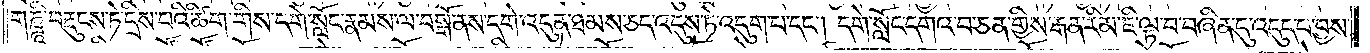གཎྜཱི་བརྡུངས་ཏེ་དྲིས་པའི་ཚིག་གིས་དགེ་སློང་རྣམས་ལ་བསྒོ་ནས་དགེ་འདུན་ཐམས་ཅད་འདུས་ཏེ་འདུག་པ་དང༌། དགེ་སློང་དགའ་བ་ཅན་གྱིས་རྒན་རིམ་ཇི་ལྟ་བ་བཞིན་དུ་འདུད་པ་བྱས་
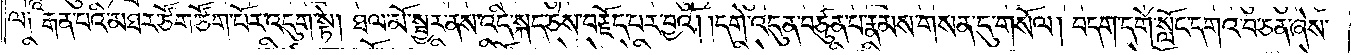ལ༑ རྒན་པའི་མཐར་ཙོག་ཙོག་པོར་འདུག་སྟེ། ཐལ་མོ་སྦྱར་ནས་འདི་སྐད་ཅེས་བརྗོད་པར་བྱའོ། །དགེ་འདུན་བཙུན་པ་རྣམས་གསན་དུ་གསོལ། བདག་དགེ་སློང་དགའ་བ་ཅན་ཞེས་
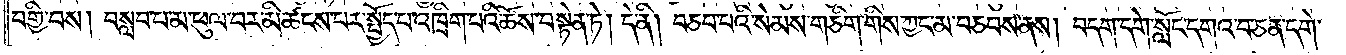བགྱི་བས། བསླབ་པ་མ་ཕུལ་བར་མི་ཚངས་པར་སྤྱོད་པ་འཁྲིག་པའི་ཆོས་བསྟེན་ཏེ། དེ་ནི། བཅབ་པའི་སེམས་གཅིག་གིས་ཀྱང་མ་བཅབས་ནས། བདག་དགེ་སློང་དགའ་བ་ཅན་དགེ་
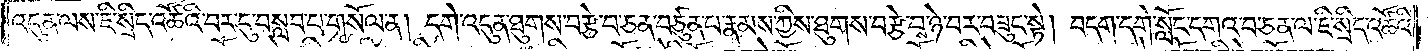འདུན་ལས་ཇི་སྲིད་འཚོའི་བར་དུ་བསླབ་པ་གསོལ་ན། དགེ་འདུན་ཐུགས་བརྩེ་བ་ཅན་བཙུན་པ་རྣམས་ཀྱིས་ཐུགས་བརྩེ་བས་ཉེ་བར་བཟུང་སྟེ། བདག་དགེ་སློང་དགའ་བ་ཅན་ལ་ཇི་སྲིད་འཚོའི་
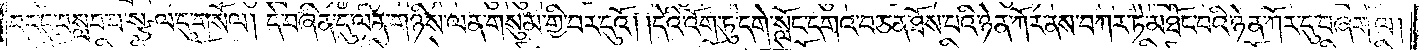བར་དུ་བསླབ་པ་སྩལ་དུ་གསོལ། དེ་བཞིན་དུ་ལན་གཉིས་ལན་གསུམ་གྱི་བར་དུའོ། །དེའི་འོག་ཏུ་དགེ་སློང་དགའ་བ་ཅན་ཐོས་པའི་ཉེན་ཀོར་ནས་བཀར་ཏེ་མཐོང་བའི་ཉེན་ཀོར་དུ་བཞག་ལ།
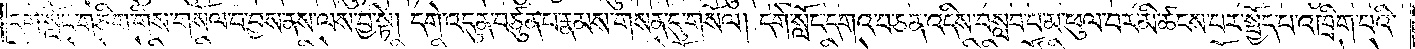དགེ་སློང་གཅིག་གིས་གསོལ་བ་བྱས་ནས་ལས་བྱ་སྟེ། དགེ་འདུན་བཙུན་པ་རྣམས་གསན་དུ་གསོལ། དགེ་སློང་དགའ་བ་ཅན་འདིས་བསླབ་པ་མ་ཕུལ་བར་མི་ཚངས་པར་སྤྱོད་པ་འཁྲིག་པའི་
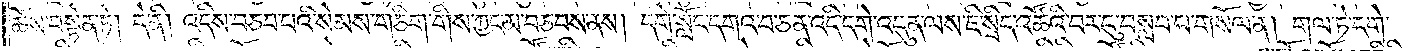ཆོས་བསྟེན་ཏེ། དེ་ནི། འདིས་བཅབ་པའི་སེམས་གཅིག་གིས་ཀྱང་མ་བཅབས་ནས། དགེ་སློང་དགའ་བ་ཅན་འདི་དགེ་འདུན་ལས་ཇི་སྲིད་འཚོའི་བར་དུ་བསླབ་པ་གསོལ་ན། གལ་ཏེ་དགེ་
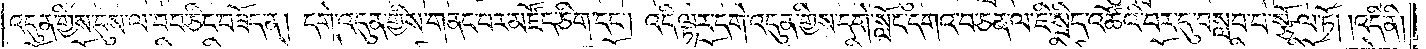འདུན་གྱིས་དུས་ལ་བབ་ཅིང་བཟོད་ན། དགེ་འདུན་གྱིས་གནང་བར་མཛོད་ཅིག་དང༌། འདི་ལྟར་དགེ་འདུན་གྱིས་དགེ་སློང་དགའ་བ་ཅན་ལ་ཇི་སྲིད་འཚོའི་བར་དུ་བསླབ་པ་སྩོལ་ཏོ། །འདི་ནི།
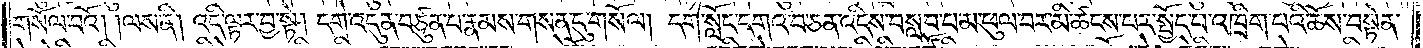གསོལ་བའོ། །ལས་ནི། འདི་ལྟར་བྱ་སྟེ། དགེ་འདུན་བཙུན་པ་རྣམས་གསན་དུ་གསོལ། དགེ་སློང་དགའ་བ་ཅན་འདིས་བསླབ་པ་མ་ཕུལ་བར་མི་ཚངས་པར་སྤྱོད་པ་འཁྲིག་པའི་ཆོས་བསྟེན་
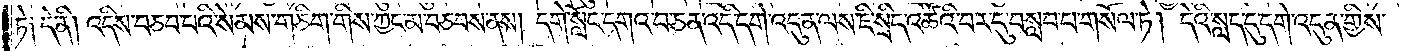ཏེ༑ དེ་ནི། འདིས་བཅབ་པའི་སེམས་གཅིག་གིས་ཀྱང་མ་བཅབས་ནས། དགེ་སློང་དགའ་བ་ཅན་འདི་དགེ་འདུན་ལས་ཇི་སྲིད་འཚོའི་བར་དུ་བསླབ་པ་གསོལ་ཏེ། དེའི་སླད་དུ་དགེ་འདུན་གྱིས་
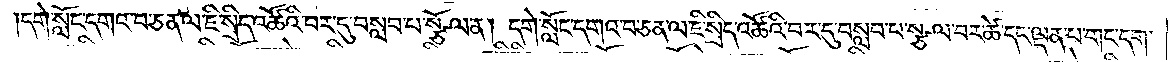དགེ་སློང་དགའ་བ་ཅན་ལ་ཇི་སྲིད་འཚོའི་བར་དུ་བསླབ་པ་སྩོལ་ན། དགེ་སློང་དགའ་བ་ཅན་ལ་ཇི་སྲིད་འཚོའི་བར་དུ་བསླབ་པ་སྩལ་པར་ཚེ་དང་ལྡན་པ་གང་དག་
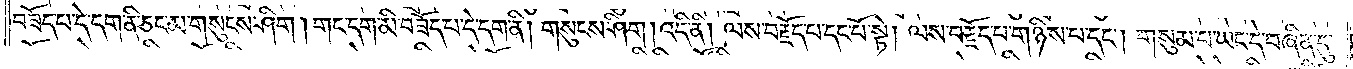བཟོད་པ་དེ་དག་ནི་ཅང་མ་གསུངས་ཤིག །གང་དག་མི་བཟོད་པ་དེ་དག་ནི། གསུངས་ཤིག །འདི་ནི། ལས་བརྗོད་པ་དང་པོ་སྟེ། ལས་བརྗོད་པ་གཉིས་པ་དང༌། གསུམ་པ་ཡང་དེ་བཞིན་དུ་
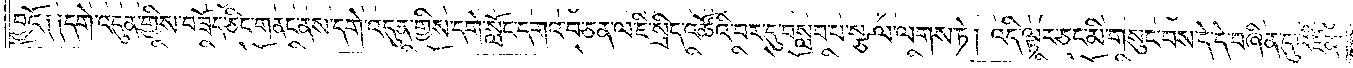བྱའོ༑ ༑དགེ་འདུན་གྱིས་བཟོད་ཅིང་གནང་ནས་དགེ་འདུན་གྱིས་དགེ་སློང་དགའ་བ་ཅན་ལ་ཇི་སྲིད་འཚོའི་བར་དུ་བསླབ་པ་སྩལ་ལགས་ཏེ། འདི་ལྟར་ཅང་མི་གསུང་བས་དེ་དེ་བཞིན་དུ་འཛིན་
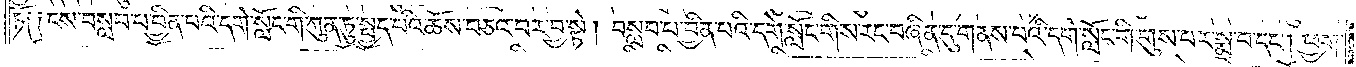ཏོ༑ ༑ངས་བསླབ་པ་བྱིན་པའི་དགེ་སློང་གི་ཀུན་ཏུ་སྤྱད་པའི་ཆོས་བཅའ་བར་བྱ་སྟེ། བསླབ་པ་བྱིན་པའི་དགེ་སློང་གིས་རང་བཞིན་དུ་གནས་པའི་དགེ་སློང་གི་གུས་པར་སྨྲ་བ་དང༌། ཕྱག་
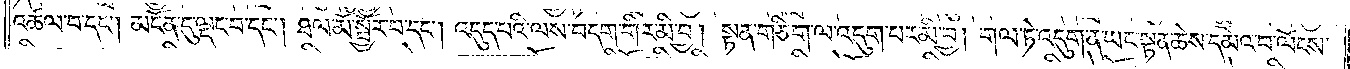འཚལ་བ་དང༌། མངོན་དུ་ལྡང་བ་དང༌། ཐལ་མོ་སྦྱོར་བ་དང༌། འདུད་པའི་ལས་བདག་གིར་མི་བྱ། སྟན་གཅིག་ལ་འདུག་པར་མི་བྱ། གལ་ཏེ་འདུག་ན་ཡང་སྟན་ཆེས་དམའ་བ་ལོངས་
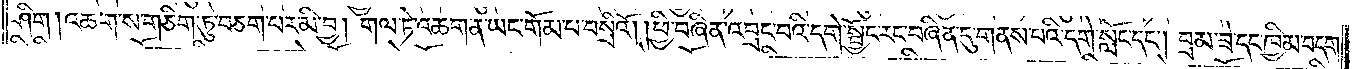ཤིག །འཆག་ས་གཅིག་ཏུ་བཅག་པར་མི་བྱ། གལ་ཏེ་འཆག་ན་ཡང་གོམ་པ་བསྲིའོ། །ཕྱི་བཞིན་འབྲང་བའི་དགེ་སྦྱོང་རང་བཞིན་དུ་གནས་པའི་དགེ་སློང་དང༌། བྲམ་ཟེ་དང་ཁྱིམ་བདག་
